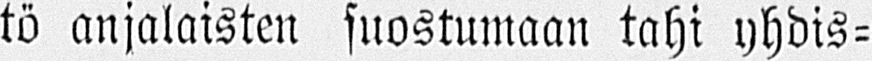tö anjalaisten suostumaan tahi yhdis-
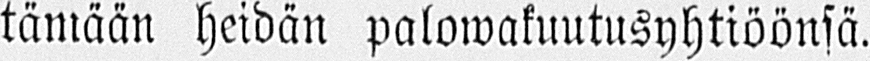tämään heidän palowakuutusyhtiöönsä.
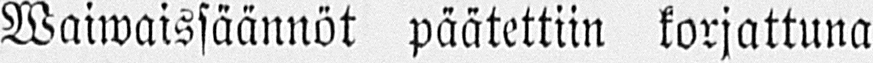Waiwaissäänuöt päätettiin korjattuna
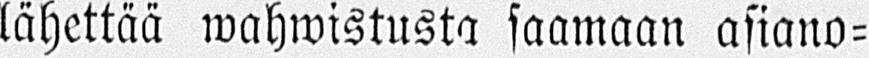lähettää wahwistusta saamaan asiano-
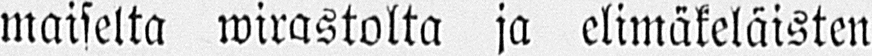maiselta wirastolta ja elimäkeläisten
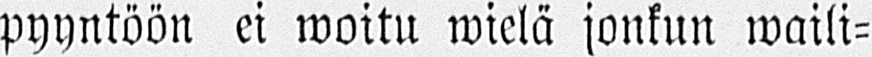pyyntöön ei woitu wielä jonkun waili-
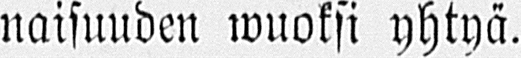naisuuden wuoksi yhtyä.
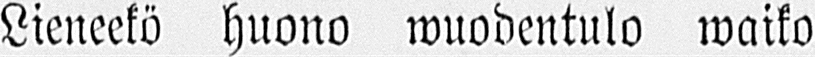Lieneekö huono wuodentulo waiko
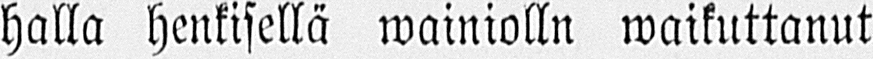halla henkisellä wainiolln waikuttanut
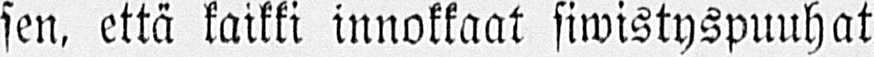sen, että kaikki innokkaat siwistyspuuhat
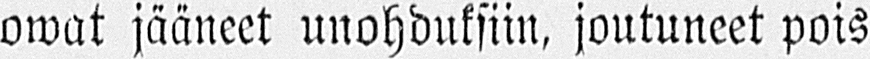owat jääneet unohduksiin, joutuneet pois
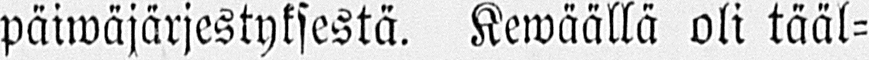päiwäjärjestyksestä. Kewäällä oli tääl-
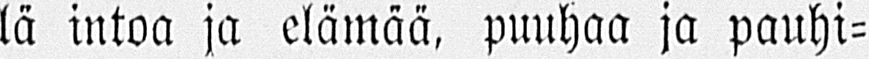lä intoa ja elämää, puuhaa ja pauhi-
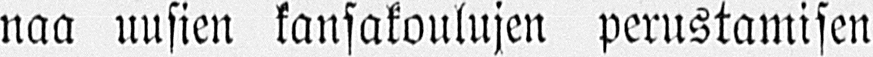naa uusien kansakoulujen perustamisen
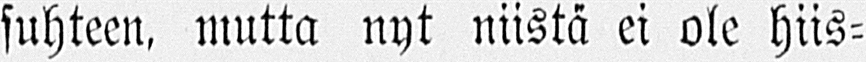suhteen, mutta nyt niistä ei ole hiis-
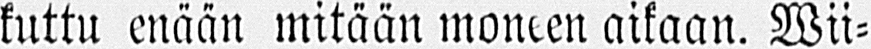kuttu enään mitään moneen aikaan. Wii-
